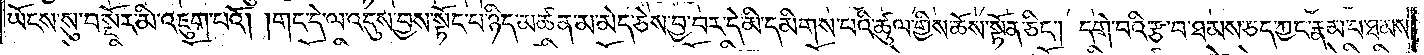ཡོངས་སུ་བསྔོར་མི་འཇུག་པའོ། །གང་དེ་ལ་འདུས་བྱས་སྟོང་པ་ཉིད་མཚན་མ་མེད་ཅེས་བྱ་བར་དེ་མི་དམིགས་པའི་ཚུལ་གྱིས་ཆོས་སྟོན་ཅིང༌། དགེ་བའི་རྩ་བ་ཐམས་ཅད་ཀྱང་རྣམ་པ་ཐམས་
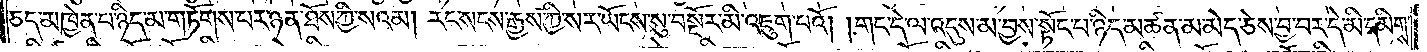ཅད་མཁྱེན་པ་ཉིད་མ་གཏོགས་པར་ཉན་ཐོས་ཀྱི་སའམ། རང་སངས་རྒྱས་ཀྱི་སར་ཡོངས་སུ་བསྔོར་མི་འཇུག་པའོ། །གང་དེ་ལ་འདུས་མ་བྱས་སྟོང་པ་ཉིད་མཚན་མ་མེད་ཅེས་བྱ་བར་དེ་མི་དམིགས་
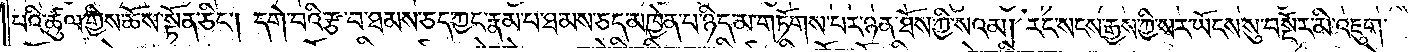པའི་ཚུལ་གྱིས་ཆོས་སྟོན་ཅིང༌། དགེ་བའི་རྩ་བ་ཐམས་ཅད་ཀྱང་རྣམ་པ་ཐམས་ཅད་མཁྱེན་པ་ཉིད་མ་གཏོགས་པར་ཉན་ཐོས་ཀྱི་སའམ། རང་སངས་རྒྱས་ཀྱི་སར་ཡོངས་སུ་བསྔོར་མི་འཇུག་
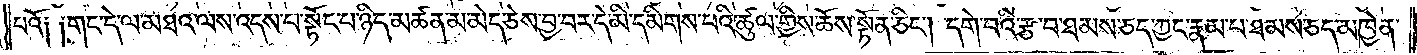པའོ༑ ༑གང་དེ་ལ་མཐའ་ལས་འདས་པ་སྟོང་པ་ཉིད་མཚན་མ་མེད་ཅེས་བྱ་བར་དེ་མི་དམིགས་པའི་ཚུལ་གྱིས་ཆོས་སྟོན་ཅིང༌། དགེ་བའི་རྩ་བ་ཐམས་ཅད་ཀྱང་རྣམ་པ་ཐམས་ཅད་མཁྱེན་
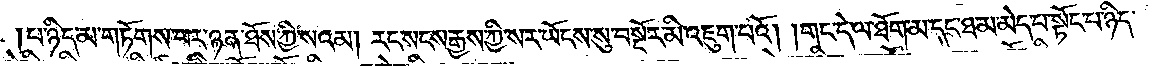པ་ཉིད་མ་གཏོགས་པར་ཉན་ཐོས་ཀྱི་སའམ། རང་སངས་རྒྱས་ཀྱི་སར་ཡོངས་སུ་བསྔོར་མི་འཇུག་པའོ། །གང་དེ་ལ་ཐོག་མ་དང་ཐ་མ་མེད་པ་སྟོང་པ་ཉིད་
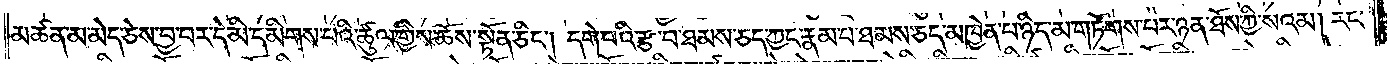མཚན་མ་མེད་ཅེས་བྱ་བར་དེ་མི་དམིགས་པའི་ཚུལ་གྱིས་ཆོས་སྟོན་ཅིང༌། དགེ་བའི་རྩ་བ་ཐམས་ཅད་ཀྱང་རྣམ་པ་ཐམས་ཅད་མཁྱེན་པ་ཉིད་མ་གཏོགས་པར་ཉན་ཐོས་ཀྱི་སའམ། རང་
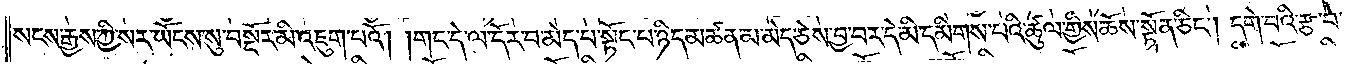སངས་རྒྱས་ཀྱི་སར་ཡོངས་སུ་བསྔོར་མི་འཇུག་པའོ། །གང་དེ་ལ་དོར་བ་མེད་པ་སྟོང་པ་ཉིད་མཚན་མ་མེད་ཅེས་བྱ་བར་དེ་མི་དམིགས་པའི་ཚུལ་གྱིས་ཆོས་སྟོན་ཅིང༌། དགེ་བའི་རྩ་བ་
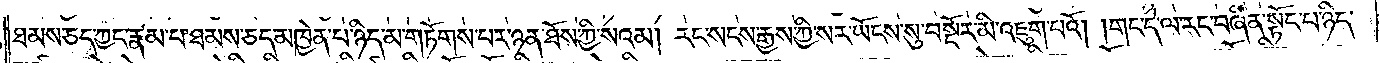ཐམས་ཅད་ཀྱང་རྣམ་པ་ཐམས་ཅད་མཁྱེན་པ་ཉིད་མ་གཏོགས་པར་ཉན་ཐོས་ཀྱི་སའམ། རང་སངས་རྒྱས་ཀྱི་སར་ཡོངས་སུ་བསྔོར་མི་འཇུག་པའོ། །གང་དེ་ལ་རང་བཞིན་སྟོང་པ་ཉིད་
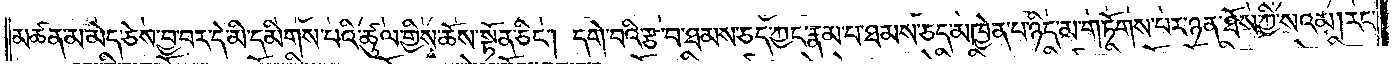མཚན་མ་མེད་ཅེས་བྱ་བར་དེ་མི་དམིགས་པའི་ཚུལ་གྱིས་ཆོས་སྟོན་ཅིང༌། དགེ་བའི་རྩ་བ་ཐམས་ཅད་ཀྱང་རྣམ་པ་ཐམས་ཅད་མཁྱེན་པ་ཉིད་མ་གཏོགས་པར་ཉན་ཐོས་ཀྱི་སའམ། རང་
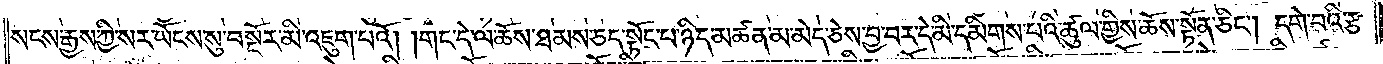སངས་རྒྱས་ཀྱི་སར་ཡོངས་སུ་བསྔོར་མི་འཇུག་པའོ། །གང་དེ་ལ་ཆོས་ཐམས་ཅད་སྟོང་པ་ཉིད་མཚན་མ་མེད་ཅེས་བྱ་བར་དེ་མི་དམིགས་པའི་ཚུལ་གྱིས་ཆོས་སྟོན་ཅིང༌། དགེ་བའི་རྩ་
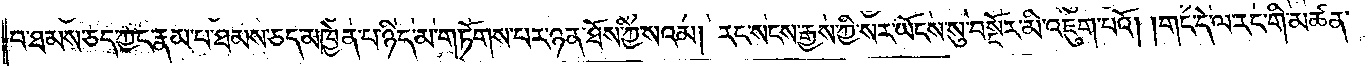བ་ཐམས་ཅད་ཀྱང་རྣམ་པ་ཐམས་ཅད་མཁྱེན་པ་ཉིད་མ་གཏོགས་པར་ཉན་ཐོས་ཀྱི་སའམ། རང་སངས་རྒྱས་ཀྱི་སར་ཡོངས་སུ་བསྔོར་མི་འཇུག་པའོ། །གང་དེ་ལ་རང་གི་མཚན་
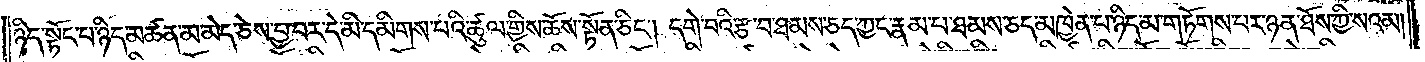ཉིད་སྟོང་པ་ཉིད་མཚན་མ་མེད་ཅེས་བྱ་བར་དེ་མི་དམིགས་པའི་ཚུལ་གྱིས་ཆོས་སྟོན་ཅིང༌། དགེ་བའི་རྩ་བ་ཐམས་ཅད་ཀྱང་རྣམ་པ་ཐམས་ཅད་མཁྱེན་པ་ཉིད་མ་གཏོགས་པར་ཉན་ཐོས་ཀྱི་སའམ།
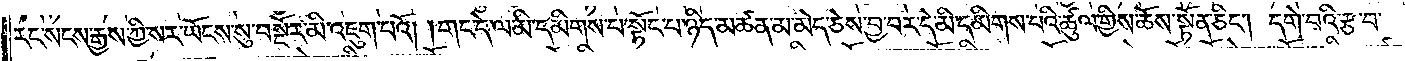རང་སངས་རྒྱས་ཀྱི་སར་ཡོངས་སུ་བསྔོར་མི་འཇུག་པའོ། །གང་དེ་ལ་མི་དམིགས་པ་སྟོང་པ་ཉིད་མཚན་མ་མེད་ཅེས་བྱ་བར་དེ་མི་དམིགས་པའི་ཚུལ་གྱིས་ཆོས་སྟོན་ཅིང༌། དགེ་བའི་རྩ་བ་
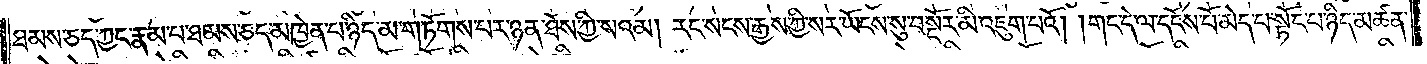ཐམས་ཅད་ཀྱང་རྣམ་པ་ཐམས་ཅད་མཁྱེན་པ་ཉིད་མ་གཏོགས་པར་ཉན་ཐོས་ཀྱི་སའམ། རང་སངས་རྒྱས་ཀྱི་སར་ཡོངས་སུ་བསྔོར་མི་འཇུག་པའོ། །གང་དེ་ལ་དངོས་པོ་མེད་པ་སྟོང་པ་ཉིད་མཚན་
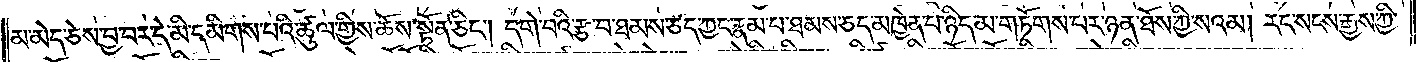མ་མེད་ཅེས་བྱ་བར་དེ་མི་དམིགས་པའི་ཚུལ་གྱིས་ཆོས་སྟོན་ཅིང༌། དགེ་བའི་རྩ་བ་ཐམས་ཅད་ཀྱང་རྣམ་པ་ཐམས་ཅད་མཁྱེན་པ་ཉིད་མ་གཏོགས་པར་ཉན་ཐོས་ཀྱི་སའམ། རང་སངས་རྒྱས་ཀྱི་
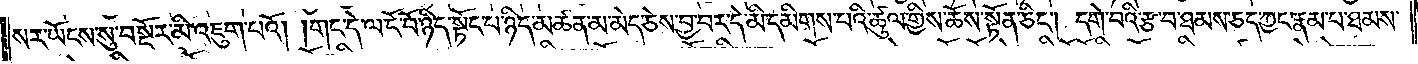སར་ཡོངས་སུ་བསྔོར་མི་འཇུག་པའོ། །གང་དེ་ལ་ངོ་བོ་ཉིད་སྟོང་པ་ཉིད་མཚན་མ་མེད་ཅེས་བྱ་བར་དེ་མི་དམིགས་པའི་ཚུལ་གྱིས་ཆོས་སྟོན་ཅིང༌། དགེ་བའི་རྩ་བ་ཐམས་ཅད་ཀྱང་རྣམ་པ་ཐམས་
